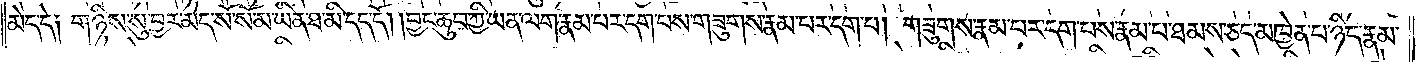མེད་དེ༑ གཉིས་སུ་བྱར་མེད་སོ་སོ་མ་ཡིན་ཐ་མི་དད་དོ། །བྱང་ཆུབ་ཀྱི་ཡན་ལག་རྣམ་པར་དག་པས་གཟུགས་རྣམ་པར་དག་པ། གཟུགས་རྣམ་པར་དག་པས་རྣམ་པ་ཐམས་ཅད་མཁྱེན་པ་ཉིད་རྣམ་
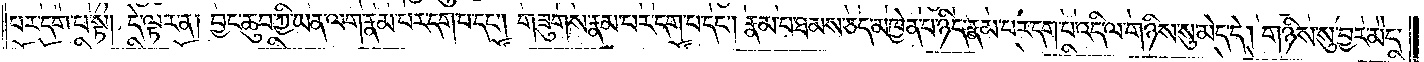པར་དག་པ་སྟེ། དེ་ལྟར་ན། བྱང་ཆུབ་ཀྱི་ཡན་ལག་རྣམ་པར་དག་པ་དང༌། གཟུགས་རྣམ་པར་དག་པ་དང༌། རྣམ་པ་ཐམས་ཅད་མཁྱེན་པ་ཉིད་རྣམ་པར་དག་པ་འདི་ལ་གཉིས་སུ་མེད་དེ། གཉིས་སུ་བྱར་མེད་
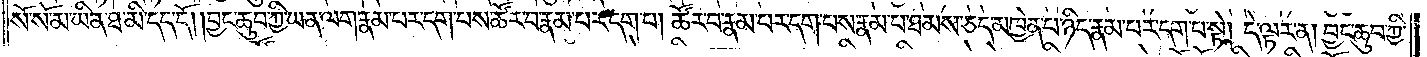སོ་སོ་མ་ཡིན་ཐ་མི་དད་དོ། །བྱང་ཆུབ་ཀྱི་ཡན་ལག་རྣམ་པར་དག་པས་ཚོར་བ་རྣམ་པར་དག་པ། ཚོར་བ་རྣམ་པར་དག་པས་རྣམ་པ་ཐམས་ཅད་མཁྱེན་པ་ཉིད་རྣམ་པར་དག་པ་སྟེ། དེ་ལྟར་ན། བྱང་ཆུབ་ཀྱི་
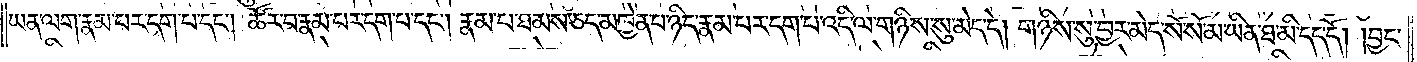ཡན་ལག་རྣམ་པར་དག་པ་དང༌། ཚོར་བ་རྣམ་པར་དག་པ་དང༌། རྣམ་པ་ཐམས་ཅད་མཁྱེན་པ་ཉིད་རྣམ་པར་དག་པ་འདི་ལ་གཉིས་སུ་མེད་དེ། གཉིས་སུ་བྱར་མེད་སོ་སོ་མ་ཡིན་ཐ་མི་དད་དོ། །བྱང་
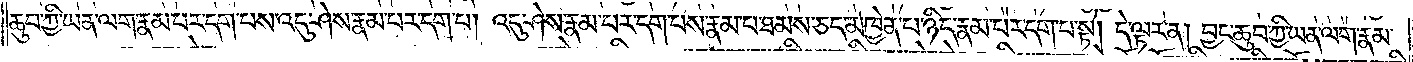ཆུབ་ཀྱི་ཡན་ལག་རྣམ་པར་དག་པས་འདུ་ཤེས་རྣམ་པར་དག་པ། འདུ་ཤེས་རྣམ་པར་དག་པས་རྣམ་པ་ཐམས་ཅད་མཁྱེན་པ་ཉིད་རྣམ་པར་དག་པ་སྟེ། དེ་ལྟར་ན། བྱང་ཆུབ་ཀྱི་ཡན་ལག་རྣམ་
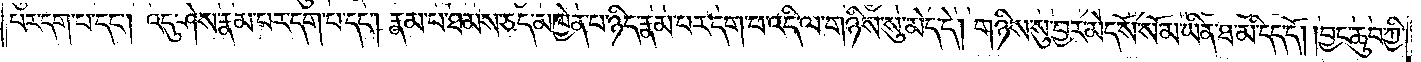པར་དག་པ་དང༌། འདུ་ཤེས་རྣམ་པར་དག་པ་དང༌། རྣམ་པ་ཐམས་ཅད་མཁྱེན་པ་ཉིད་རྣམ་པར་དག་པ་འདི་ལ་གཉིས་སུ་མེད་དེ། གཉིས་སུ་བྱར་མེད་སོ་སོ་མ་ཡིན་ཐ་མི་དད་དོ། བྱང་ཆུབ་ཀྱི་
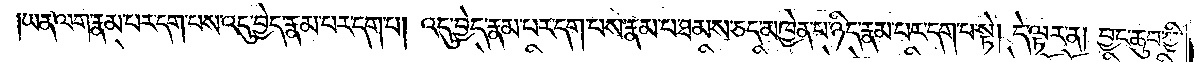ཡན་ལག་རྣམ་པར་དག་པས་འདུ་བྱེད་རྣམ་པར་དག་པ། འདུ་བྱེད་རྣམ་པར་དག་པས་རྣམ་པ་ཐམས་ཅད་མཁྱེན་པ་ཉིད་རྣམ་པར་དག་པ་སྟེ། དེ་ལྟར་ན། བྱང་ཆུབ་ཀྱི་
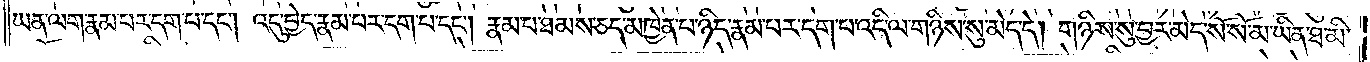ཡན་ལག་རྣམ་པར་དག་པ་དང༌། འདུ་བྱེད་རྣམ་པར་དག་པ་དང༌། རྣམ་པ་ཐམས་ཅད་མཁྱེན་པ་ཉིད་རྣམ་པར་དག་པ་འདི་ལ་གཉིས་སུ་མེད་དེ། གཉིས་སུ་བྱར་མེད་སོ་སོ་མ་ཡིན་ཐ་མི་
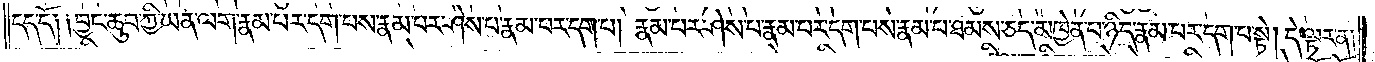དད་དོ༑ ༑བྱང་ཆུབ་ཀྱི་ཡན་ལག་རྣམ་པར་དག་པས་རྣམ་པར་ཤེས་པ་རྣམ་པར་དག་པ། རྣམ་པར་ཤེས་པ་རྣམ་པར་དག་པས་རྣམ་པ་ཐམས་ཅད་མཁྱེན་པ་ཉིད་རྣམ་པར་དག་པ་སྟེ། དེ་ལྟར་ན།
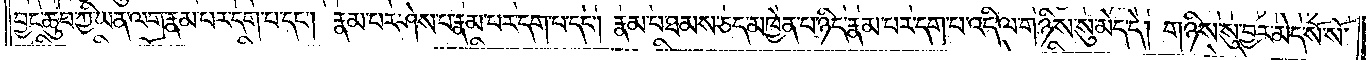བྱང་ཆུབ་ཀྱི་ཡན་ལག་རྣམ་པར་དག་པ་དང༌། རྣམ་པར་ཤེས་པ་རྣམ་པར་དག་པ་དང༌། རྣམ་པ་ཐམས་ཅད་མཁྱེན་པ་ཉིད་རྣམ་པར་དག་པ་འདི་ལ་གཉིས་སུ་མེད་དེ། གཉིས་སུ་བྱར་མེད་སོ་སོ་
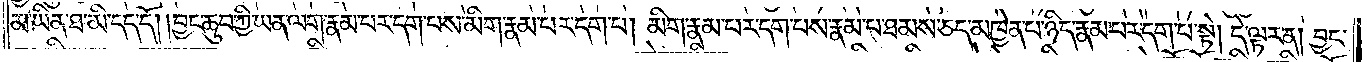མ་ཡིན་ཐ་མི་དད་དོ། །བྱང་ཆུབ་ཀྱི་ཡན་ལག་རྣམ་པར་དག་པས་མིག་རྣམ་པར་དག་པ། མིག་རྣམ་པར་དག་པས་རྣམ་པ་ཐམས་ཅད་མཁྱེན་པ་ཉིད་རྣམ་པར་དག་པ་སྟེ། དེ་ལྟར་ན། བྱང་
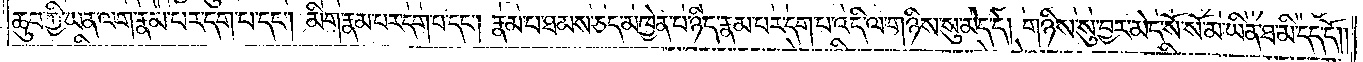ཆུབ་ཀྱི་ཡན་ལག་རྣམ་པར་དག་པ་དང༌། མིག་རྣམ་པར་དག་པ་དང༌། རྣམ་པ་ཐམས་ཅད་མཁྱེན་པ་ཉིད་རྣམ་པར་དག་པ་འདི་ལ་གཉིས་སུ་མེད་དེ། གཉིས་སུ་བྱར་མེད་སོ་སོ་མ་ཡིན་ཐ་མི་དད་དོ། །
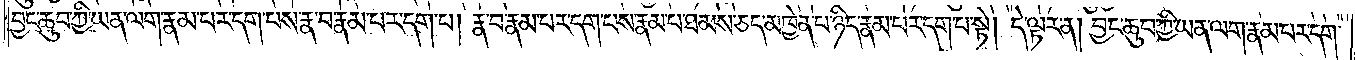བྱང་ཆུབ་ཀྱི་ཡན་ལག་རྣམ་པར་དག་པས་རྣ་བ་རྣམ་པར་དག་པ། རྣ་བ་རྣམ་པར་དག་པས་རྣམ་པ་ཐམས་ཅད་མཁྱེན་པ་ཉིད་རྣམ་པར་དག་པ་སྟེ། དེ་ལྟར་ན། བྱང་ཆུབ་ཀྱི་ཡན་ལག་རྣམ་པར་དག་
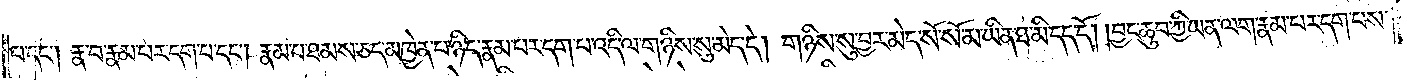པ་དང༌། རྣ་བ་རྣམ་པར་དག་པ་དང༌། རྣམ་པ་ཐམས་ཅད་མཁྱེན་པ་ཉིད་རྣམ་པར་དག་པ་འདི་ལ་གཉིས་སུ་མེད་དེ། གཉིས་སུ་བྱར་མེད་སོ་སོ་མ་ཡིན་ཐ་མི་དད་དོ། །བྱང་ཆུབ་ཀྱི་ཡན་ལག་རྣམ་པར་དག་པས་
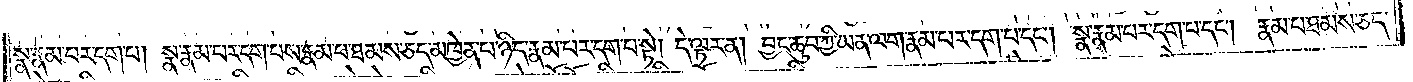སྣ་རྣམ་པར་དག་པ། སྣ་རྣམ་པར་དག་པས་རྣམ་པ་ཐམས་ཅད་མཁྱེན་པ་ཉིད་རྣམ་པར་དག་པ་སྟེ། དེ་ལྟར་ན། བྱང་ཆུབ་ཀྱི་ཡན་ལག་རྣམ་པར་དག་པ་དང༌། སྣ་རྣམ་པར་དག་པ་དང༌། རྣམ་པ་ཐམས་ཅད་
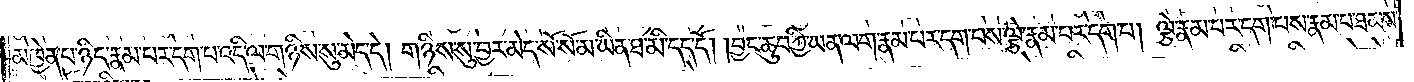མཁྱེན་པ་ཉིད་རྣམ་པར་དག་པ་འདི་ལ་གཉིས་སུ་མེད་དེ། གཉིས་སུ་བྱར་མེད་སོ་སོ་མ་ཡིན་ཐ་མི་དད་དོ། །བྱང་ཆུབ་ཀྱི་ཡན་ལག་རྣམ་པར་དག་པས་ལྕེ་རྣམ་པར་དག་པ། ལྕེ་རྣམ་པར་དག་པས་རྣམ་པ་ཐམས་
